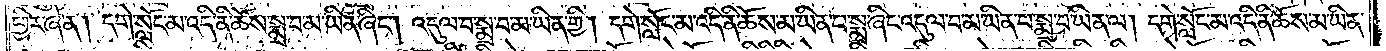ཕྱིར་ཞེ་ན། དགེ་སློང་མ་འདི་ནི་ཆོས་སྨྲ་བ་མ་ཡིན་ཞིང༌། འདུལ་བ་སྨྲ་བ་མ་ཡིན་གྱི། དགེ་སློང་མ་འདི་ནི་ཆོས་མ་ཡིན་པ་སྨྲ་ཞིང་འདུལ་བ་མ་ཡིན་པ་སྨྲ་བ་ཡིན་ལ། དགེ་སློང་མ་འདི་ནི་ཆོས་མ་ཡིན་
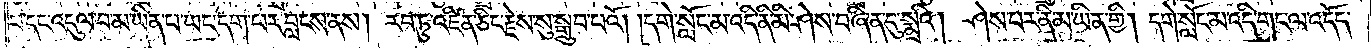པ་དང་འདུལ་བ་མ་ཡིན་པ་ཡང་དག་པར་བླངས་ནས། རབ་ཏུ་འཛིན་ཅིང་རྗེས་སུ་སྒྲུབ་པའོ། །དགེ་སློང་མ་འདི་ནི་མི་ཤེས་བཞིན་དུ་སྨྲའི། ཤེས་པར་ནི་མ་ཡིན་གྱི། དགེ་སློང་མ་འདི་གང་ལ་འདོད་
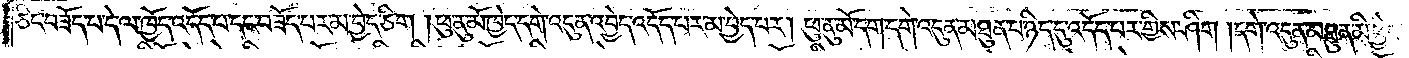ཅིང་བཟོད་པ་དེ་ལ་ཁྱོད་འདོད་པ་དང་བཟོད་པར་མ་བྱེད་ཅིག །ཕུ་ནུ་མོ་ཁྱེད་དགེ་འདུན་འབྱེད་འདོད་པར་མ་བྱེད་པར། ཕུ་ནུ་མོ་དག་དགེ་འདུན་མཐུན་པ་ཉིད་དུ་འདོད་པར་གྱིས་ཤིག །དགེ་འདུན་མཐུན་མི་ཕྱེད་
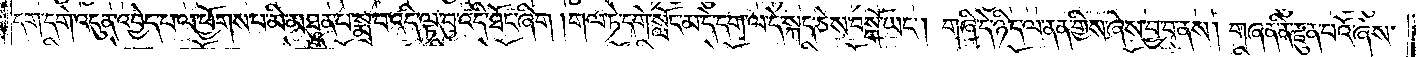དག་དགེ་འདུན་འབྱེད་པ་ལ་ཕྱོགས་པ་མི་མཐུན་པ་སྨྲ་བ་འདི་ལྟ་བུ་འདི་ཐོང་ཞིག །གལ་ཏེ་དགེ་སློང་མ་དེ་དག་ལ་དེ་སྐད་ཅེས་བསྒོ་ཡང༌། གཞི་དེ་ཉིད་ལ་ནན་གྱིས་ཞེས་བྱ་བ་ནས། གཞན་ནི་རྫུན་པའོ་ཞེས་
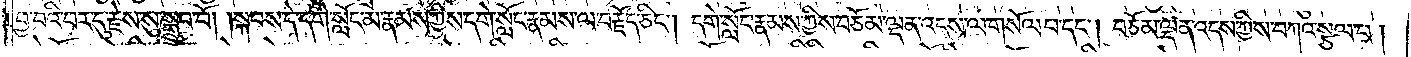བྱ་བའི་བར་དུ་རྗེས་སུ་སྒྲུབ་བོ། །སྐབས་དེ་དགེ་སློང་མ་རྣམས་ཀྱིས་དགེ་སློང་རྣམས་ལ་བརྗོད་ཅིང༌། དགེ་སློང་རྣམས་ཀྱིས་བཅོམ་ལྡན་འདས་ལ་གསོལ་བ་དང༌། བཅོམ་ལྡན་འདས་ཀྱིས་བཀའ་སྩལ་པ་
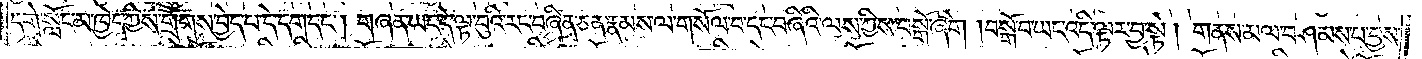དགེ་སློང་མ་ཁྱེད་ཀྱིས་གྲོགས་བྱེད་པ་དེ་དག་དང༌། གཞན་ཡང་དེ་ལྟ་བུའི་རང་བཞིན་ཅན་རྣམས་ལ་གསོལ་བ་དང་བཞིའི་ལས་ཀྱིས་བསྒོ་ཞིག །བསྒོ་བ་ཡང་འདི་ལྟར་བྱ་སྟེ། གནས་མལ་བཤམས་པ་བྱས་
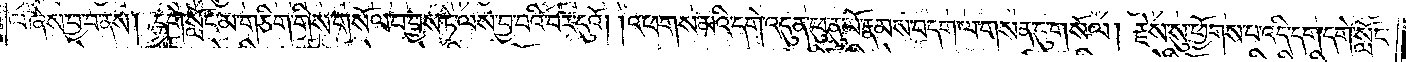པ་ཞེས་བྱ་བ་ནས། དགེ་སློང་མ་གཅིག་གིས་གསོལ་བ་བྱས་ཏེ་ལས་བྱ་བའི་བར་དུའོ། །འཕགས་མའི་དགེ་འདུན་ཕུ་ནུ་མོ་རྣམས་བདག་ལ་གསན་དུ་གསལ། རྗེས་སུ་ཕྱོགས་པ་འདི་དག་དགེ་སློང་
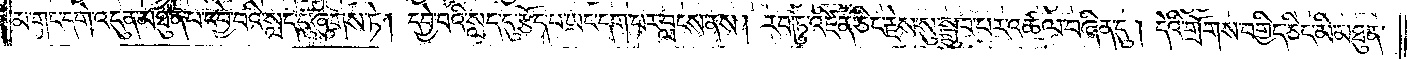མ་གང་དགེ་འདུན་མཐུན་པ་དབྱེ་བའི་སླད་དུ་ཞུགས་ཏེ། དབྱེ་བའི་སླད་དུ་རྩོད་པ་ཡང་དག་པར་བླངས་ནས། རབ་ཏུ་འཛིན་ཅིང་རྗེས་སུ་སྒྲུབ་པར་འཚལ་བཞིན་དུ། དེའི་གྲོགས་བགྱིད་ཅིང་མི་མཐུན་
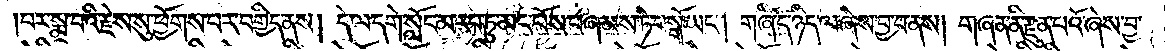པར་སྨྲ་བའི་རྗེས་སུ་ཕྱོགས་པར་བགྱིད་ནས། དེ་ལ་དགེ་སློང་མ་རབ་ཏུ་མང་པོས་བཞམས་ཏེ་བསྒོ་ཡང༌། གཞི་དེ་ཉིད་ལ་ཞེས་བྱ་བ་ནས། གཞན་ནི་རྫུན་པའོ་ཞེས་བྱ་
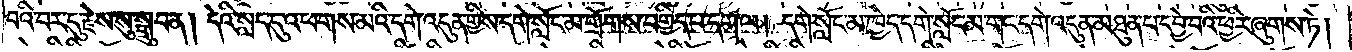པའི་བར་དུ་རྗེས་སུ་སྒྲུབ་ན། དེའི་སླད་དུ་འཕགས་མའི་དགེ་འདུན་གྱིས་དགེ་སློང་མ་གྲོགས་བགྱིད་པ་དག་ལ། དགེ་སློང་མ་ཁྱེད་དགེ་སློང་མ་གང་དགེ་འདུན་མཐུན་པ་དབྱེ་བའི་ཕྱིར་ཞུགས་ཏེ།
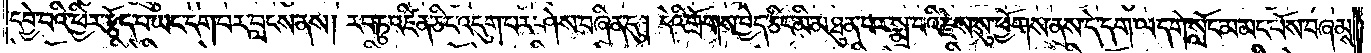དབྱེ་བའི་ཕྱིར་རྩོད་པ་ཡང་དག་པར་བླངས་ནས། རབ་ཏུ་འཛིན་ཅིང་འདུག་པར་ཤེས་བཞིན་དུ། དེའི་གྲོགས་བྱེད་ཅིང་མི་མཐུན་པར་སྨྲ་བའི་རྗེས་སུ་ཕྱོགས་ནས་དེ་དག་ལ་དགེ་སློང་མ་མང་པོས་བཞམས་
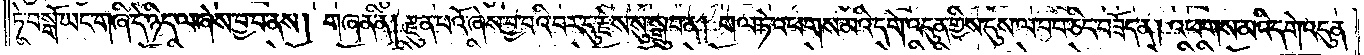ཏེ་བསྒོ་ཡང་གཞི་དེ་ཉིད་ལ་ཞེས་བྱ་བ་ནས། གཞན་ནི། རྫུན་པའོ་ཞེས་བྱ་བའི་བར་དུ་རྗེས་སུ་སྒྲུབ་ན། གལ་ཏེ་འཕགས་མའི་དགེ་འདུན་གྱིས་དུས་ལ་བབ་ཅིང་བཟོད་ན། འཕགས་མའི་དགེ་འདུན་
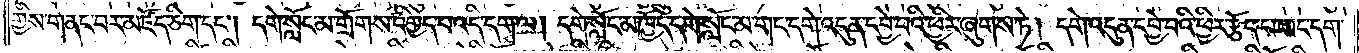གྱིས་གནང་བར་མཛོད་ཅིག་དང༌། དགེ་སློང་མ་གྲོགས་བགྱིད་པ་འདི་དག་ལ། དགེ་སློང་མ་ཁྱོད་དགེ་སློང་མ་གང་དགེ་འདུན་དབྱེ་བའི་ཕྱིར་ཞུགས་ཏེ། དགེ་འདུན་དབྱེ་བའི་ཕྱིར་རྩོད་པ་ཡང་དག་
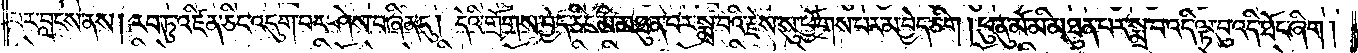པར་བླངས་ནས། རབ་ཏུ་འཛིན་ཅིང་འདུག་པར་ཤེས་བཞིན་དུ། དེའི་གྲོགས་བྱེད་ཅིང་མི་མཐུན་པར་སྨྲ་བའི་རྗེས་སུ་ཕྱོགས་པར་མ་བྱེད་ཅིག །ཕུ་ནུ་མོ་མི་མཐུན་པར་སྨྲ་བ་འདི་ལྟ་བུ་འདི་ཐོང་ཞིག །
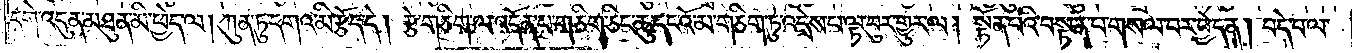དགེ་འདུན་མཐུན་མི་ཕྱེད་ལ། ཀུན་ཏུ་དགའ་མི་རྩོད་དེ། རྩེ་གཅིག་ལ་འདོན་པ་གཅིག་ཅིང་ཆུ་དང་འོ་མ་གཅིག་ཏུ་འདྲེས་པ་ལྟ་བུར་གྱུར་ལ། སྟོན་པའི་བསྟན་པ་གསལ་བར་བྱེད་ན། བདེ་བ་ལ་
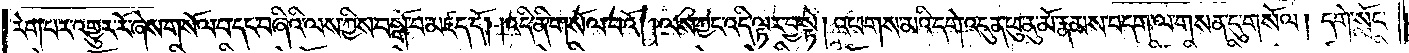རེག་པར་འགྱུར་རོ་ཞེས་གསོལ་བ་དང་བཞིའི་ལས་ཀྱིས་བསྒོ་བ་མཛད་དོ། །འདི་ནི་གསོལ་བའོ། །ལས་ཀྱང་འདི་ལྟར་བྱ་སྟེ། འཕགས་མའི་དགེ་འདུན་ཕུ་ནུ་མོ་རྣམས་བདག་ལ་གསན་དུ་གསོལ། དགེ་སློང་
